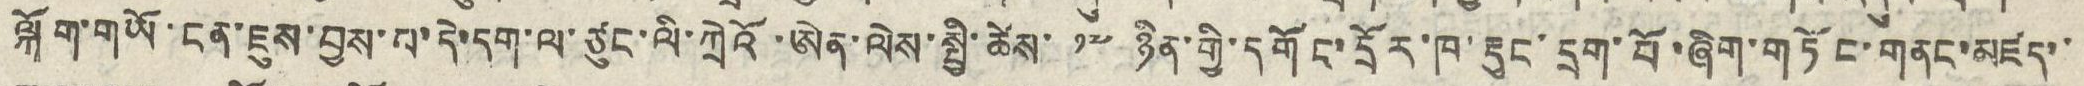ལྐོག་གཡོ་ངན་ཇུས་བྱས་པ་དེ་དག་ལ་ཙུང་ལི་ཀྲེའོ་ཨེན་ལེས་སྤྱི་ཚེས་ ༡༧ ཉིན་གྱི་དགོང་དྲོར་ཁ་རྡུང་དྲག་པོ་ཞིག་གཏོང་གནང་མཛད་་
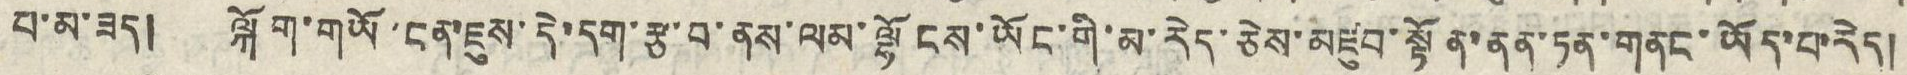པ་མ་ཟད། ལྐོག་གཡོ་ངན་ཇུས་དེ་དག་རྩ་བ་ནས་ལམ་ལྷོངས་ཡོང་གི་མ་རེད་ཅེས་མཛུབ་སྟོན་ནན་ཏན་གནང་ཡོད་པ་རེད།
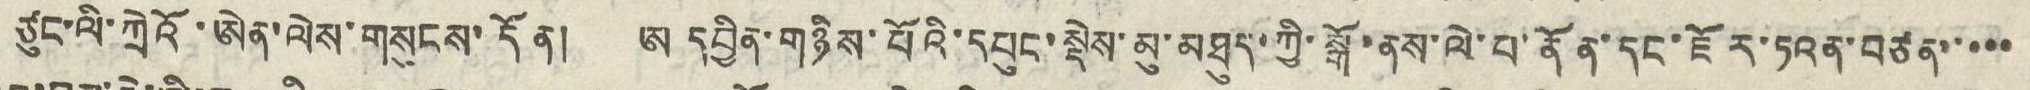ཙུང་ལི་ཀྲེའོ ་ཨེན་ལེས་གསུངས་དོན། ཨ དབྱིན་གཉིས་པོའི་དཔུང་སྡེས་མུ་མཐུད་ཀྱི་སྒོ་ནས་ལེ་པ་ནོན་དང་ཇོར་ཏའན་བཙན་་་་་
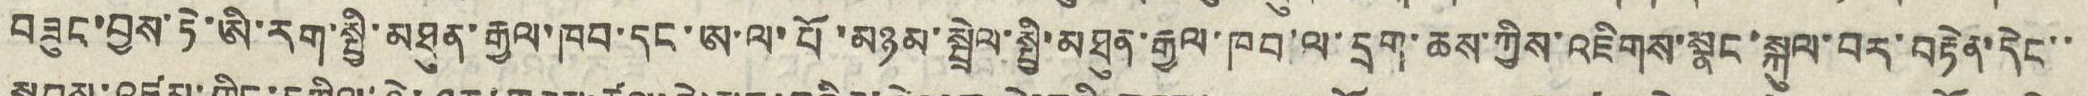བཟུང་བྱས་ཏེ་ཨི་རག་སྤྱི་མཐུན་རྒྱལ་ཁབ་དང་ཨ་ལ་པོ་མཉམ་སྦྲེལ་སྤྱི་མཐུན་རྒྱལ་ཁབ་ལ་དྲག་ཆས་ཀྱིས་འཇིགས་སྣང་སྐུལ་བར་བརྟེན་དེང་་
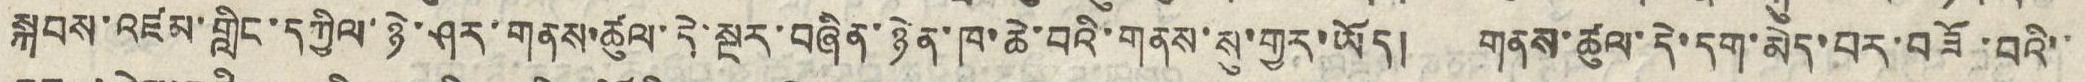སྐབས་འཛམ་གླིང་དཀྱིལ་ཉེ་ཤར་གནས་ཚུལ་དེ་སྔར་བཞིན་ཉེན་ཁ་ཆེ་བའི་གནས་སུ་གྱར་ཡོད། གནས་ཚུལ་དེ་དག་མེད་པར་བཟོ་བའི་་
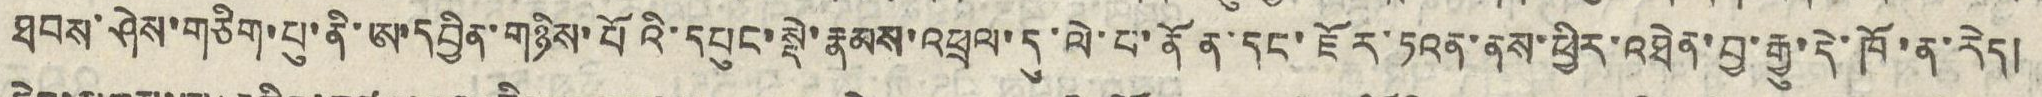ཐབས་ཤེས་གཅིག་པུ་ནི་ཨ་དབྱིན་གཉིས་པོའི་དཔུང་སྡེ་རྣམས་འཕྲལ་དུ་ལེ་པ་ནོན་དང་ཇོར་ཏའན་ནས་ཕྱིར་འཐེན་བྱ་རྒྱུ་དེ་ཁོ་ན་རེད།
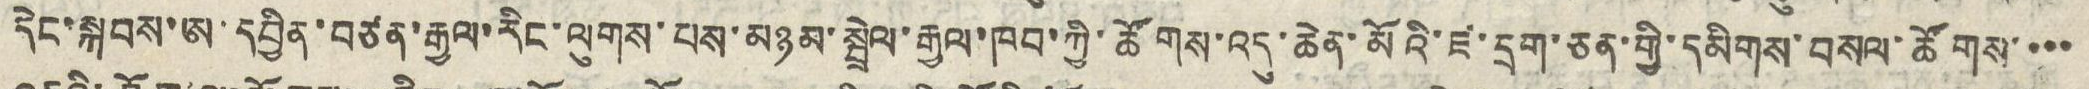དེང་སྐབས་ཨ་དབྱིན་བཙན་རྒྱལ་རིང་ལུགས་པས་མཉམ་སྦྲེལ་རྒྱལ་ཁབ་ཀྱི་ཚོགས་འདུ་ཆེན་མོའི་ཛ་དྲག་ཅན་གྱི་དམིགས་བསལ་ཚོགས་་་་
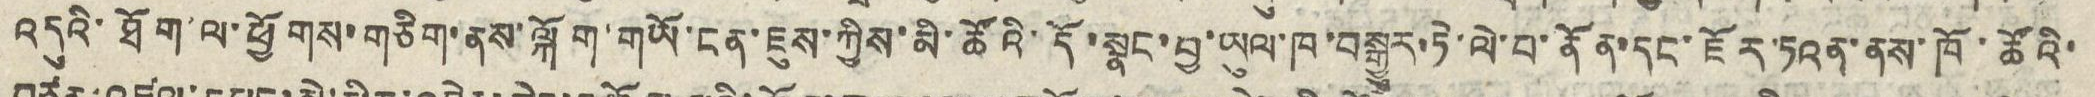འདུའི་ཐོག་ལ་ཕྱོགས་གཅིག་ནས་ལྐོག་གཡོ་ངན་ཇུས་ཀྱིས་མི་ཚོའི་དོ་སྣང་བྱ་ཡུལ་ཁ་བསྒྱུར་ཏེ་ལེ་པ་ནོན་དང་ཇོར་ཏའན་ནས་ཁོ་ཚོའི་
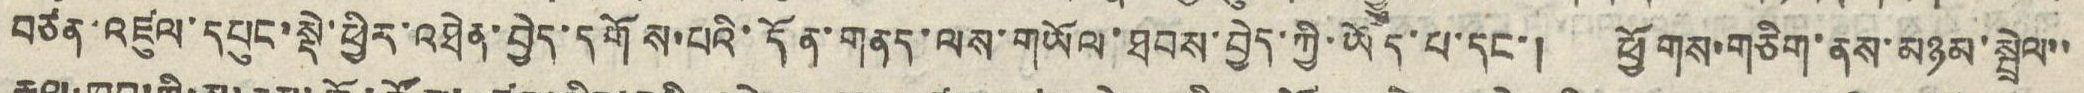བཙན་འཛུལ་དཔུང་སྡེ་ཕྱིར་འཐེན་བྱེད་དགོས་པའི་དོན་གནད་ལས་གཡོལ་ཐབས་བྱེད་ཀྱི་ཡོད་པ་དང་། ཕྱོགས་གཅིག་ནས་མཉམ་སྦྲེལ་་
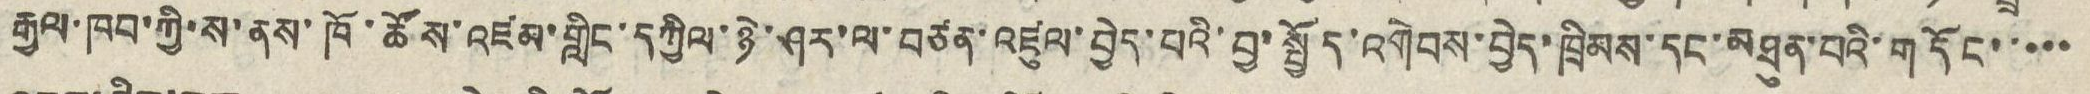རྒྱལ་ཁབ་ཀྱི་ས་ནས་ཁོ་ཚོས་འཛམ་གླིང་དཀྱིལ་ཉེ་ཤར་ལ་བཙན་འཛུལ་བྱེད་པའི་བྱ་སྤྱོད་འགེབས་བྱེད་ཁྲིམས་དང་མཐུན་པའི་གདོང་་་་་
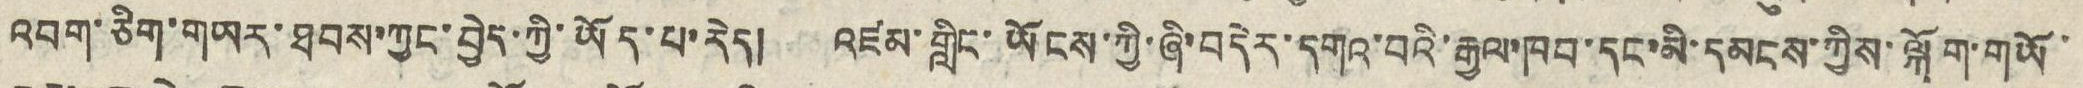འབག་ཅིག་གཡར་ཐབས་ཀྱང་བྱེད་ཀྱི་ཡོད་པ་རེད། འཛམ་གླིང་ཡོངས་ཀྱི་ཞི་བདེར་དགའ་བའི་རྒྱལ་ཁབ་དང་མི་དམངས་ཀྱིས་ལྐོག་གཡོ་
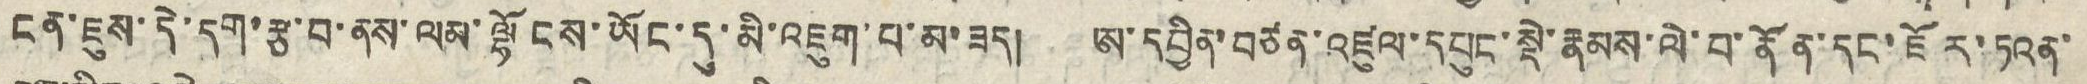ངན་ཇུས་དེ་དག་རྩ་བ་ནས་ལམ་ལྷོངས་ཡོང་དུ་མི་འཇུག་པ་མ་ཟད། ཨ་དབྱིན་བཙན་འཛུལ་དཔུང་སྡེ་རྣམས་ལེ་པ་ནོན་དང་ཇོར་ཏའན་
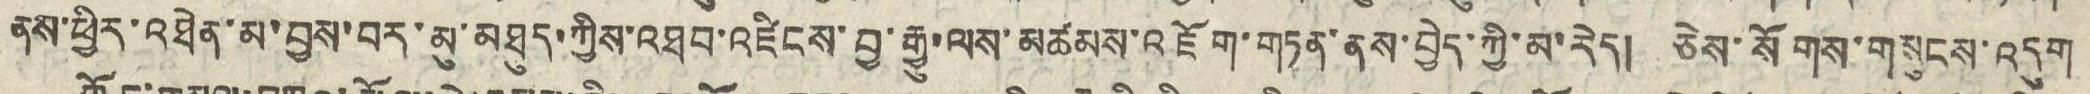ནས་ཕྱིར་འཐེན་མ་བྱས་བར་མུ་མཐུད་ཀྱིས་འཐབ་འཛིངས་བྱ་རྒྱུ་ལས་མཚམས་འཇོག་གཏན་ནས་བྱེད་ཀྱི་མ་རེད། ཅེས་སོགས་གསུངས་འདུག
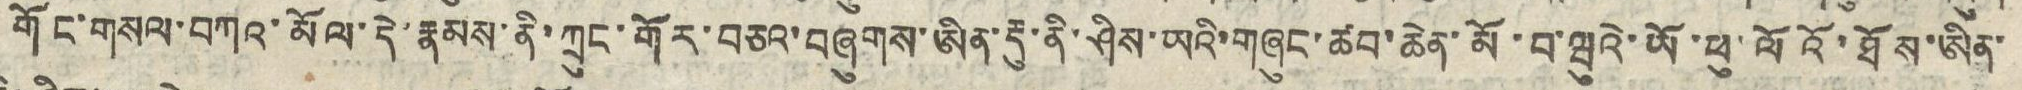གོང་གསལ་བཀའ་མོལ་དེ་རྣམས་ནི་ཀྲུང་གོར་བཅའ་བཞུགས་ཨིན་རྡུ་ནི་ཤིས་ཡའི་གཞུང་ཚབ་ཆེན་མོ་བ་ཝུའེ་ཡོ་ཕུ་ལོའོ་ཐོས་ཨིན་
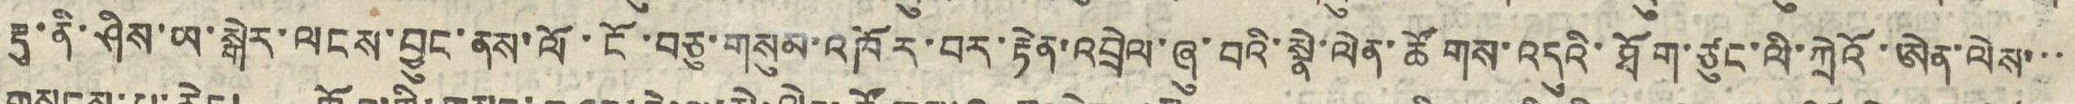རྡུ་ནི་ཤིས་ཡ་སྒེར་ལངས་བྱུང་ནས་ལོ་ངོ་བཅུ་གསུམ་འཁོར་བར་རྟེན་འབྲེལ་ཞུ་བའི་སྣེ་ལེན་ཚོགས་འདུའི་ཐོག་ཙུང་ལི་ཀྲེའོ་ཨེན་ལེས་་་
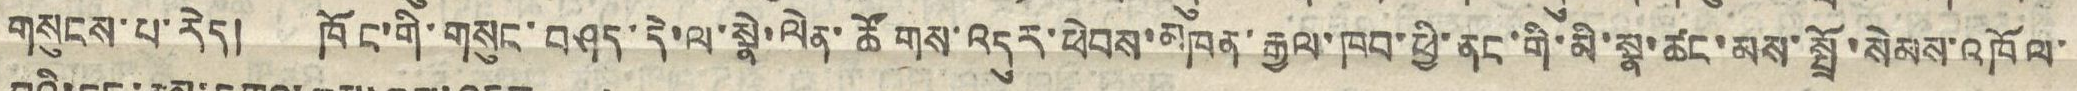གསུངས་པ་རེད། ཁོང་གི་གསུང་བཤད་དེ་ལ་སྣེ་ལེན་ཚོགས་འདུར་ཕེབས་མཁན་རྒྱལ་ཁབ་ཕྱི་ནང་གི་མི་སྣ་ཚང་མས་སྤྲོ་སེམས་འཁོལ་
